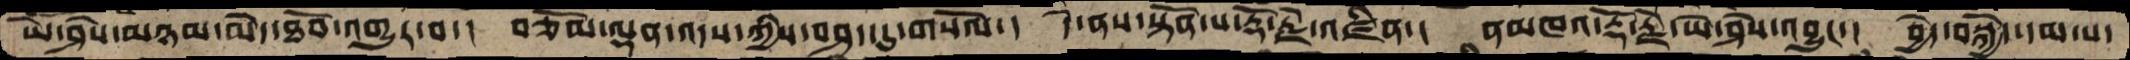ཡེ་ཤེས་མཉམ་མེད་ཐོབ་འགྱུར་བ་།  བཅོམ་ལྡན་འདས་ཀྱིས་བཤད་དུ་གསོལ་།  དེ་ནས་སྟོན་པ་རྡོ་རྗེ་འཛིན་།  ནམཁའ་རྡོ་རྗེ་ཡེ་ཤེས་འབྱུང་།  བྱེད་བསྐྱེད་དམ་པ་
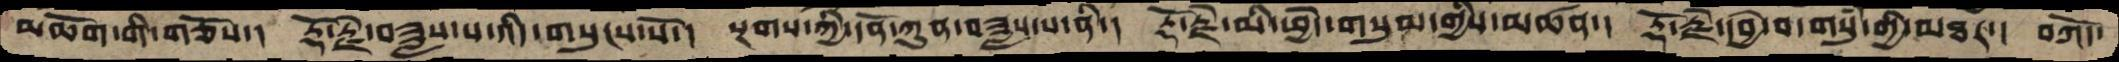མཆོག་གི་གཙོས་།  རྡོ་རྗེ་བཟླས་པ་འདི་གསུངས་སོ་།  སྔགས་ཀྱི་དོན་ཀུན་བཟླས་པ་ནི་།  རྡོ་རྗེ་མི་ཕྱེད་གསུམ་གྱིས་མཚན་།  རྡོ་རྗེ་དབྱེ་བ་གསུཾ་གྱི་མཐར་།  བཀོད་
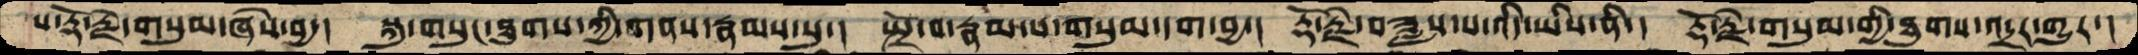པ་རྡོ་རྗེ་གསུམ་ཞེས་བྱ་།  སྐུ་གསུང་ཐུགས་ཀྱི་གནས་རྣམས་སུ།  སྤྲོ་བ་རྣམ་པ་གསུམ་དག་བྱ་།  རྡོ་རྗེ་བཟླས་པ་འདི་ཡིས་ནི་།  རྡོ་རྗེ་གསུམ་གྱི་ཐུགས་འདྲར་གྱུར་།
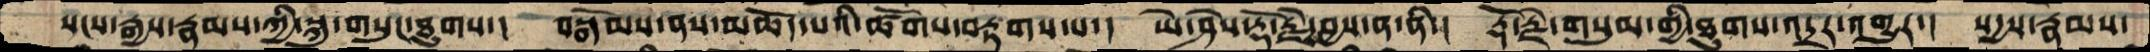སངས་རྒྱས་རྣམས་ཀྱི་སྐུ་གསུང་ཐུགས་།  བསྒོམས་ནས་མཆོད་པའི་ཚོགས་བརྟགས་པ་།  ཡེ་ཤེས་རྡོ་རྗེ་བྱས་ན་ནི་།  རྡོ་རྗེ་གསུམ་གྱི་ཐུགས་འདྲར་འགྱུར་།  སདྱས་རྣམས་
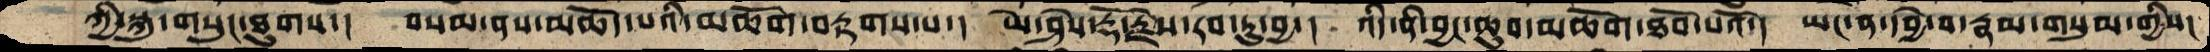ཀྱི་སྐུ་གསུང་ཐུགས་།  བསམ་ནས་མཆོད་པའི་མཆོག་བརྟགས་པ་།  ཡེ་ཤེས་རྡོ་རྗེས་རབ་ཏུ་བྱ་།  འདི་ནི་བྱང་ཆུབ་མཆོག་ཐོབ་པའོ་།  ཡང་ན་དབྱེ་བ་རྣམ་གསུམ་གྱིས།
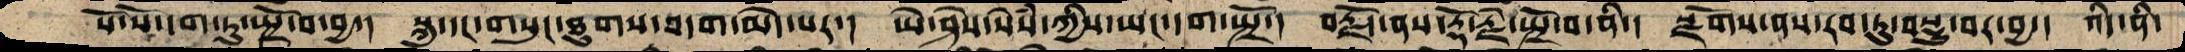སོ་སོ་དག་ཏུ་སྤྲོ་བ་བྱ་།  སྐུ་དང་གསུང་ཐུགས་བདག་མེད་པར་།  ཡེ་ཤེས་སེཾས་ཀྱིས་ཡང་དག་སྤྲོ་།  བརྗོད་ནས་རྡོ་རྗེ་སྤྲོ་བ་ནི་།  སྫོགས་ནས་རབ་ཏུ་བསྡུ་བར་བྱ་།  འདི་ནི་
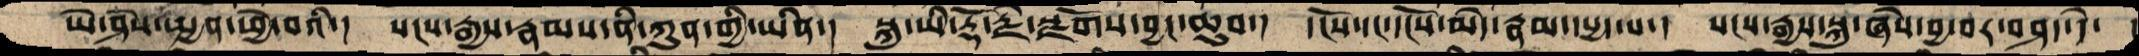ཡེ་ཤེས་སྤྱན་ཕྱེ་བའི་།  སངས་རྒྱས་རྣམས་ནི་ཀུན་གྱི་ཡིན་།  སྐུ་ཡི་རྡོ་རྗེ་སྫོགས་བྱང་ཆུབ་།  དངོས་དང་དངོས་མེད་རྣམ་དཔྱད་པ་།  སངས་རྒྱས་སྐུ་ཞེས་བྱ་བར་བཤད་དེ་
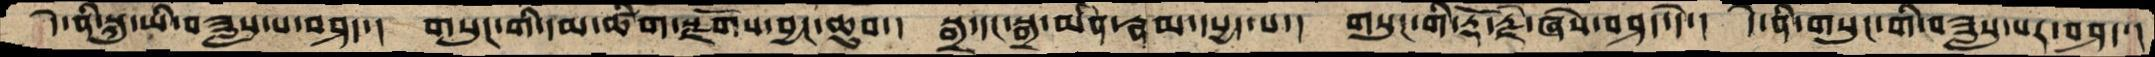དེ་ནི་སྐུ་ཡི་བཟླས་པ་བཤད་།  གསུང་གི་དམ་ཚིག་སྫོགས་བྱང་ཆུབ་།  སྒྲ་དང་སྒྲ་མིན་རྣམ་དཔྱད་པ་།  གསུང་གི་རྡོ་རྗེ་ཞེས་བཤད་དེ་།  དེ་ནི་གསུང་གི་བཟླས་པར་བཤད་།
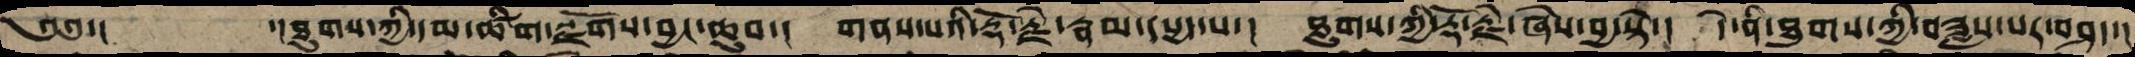༄༅་།        ་།ཐུགས་ཀྱི་དམ་ཚིག་སྫོགས་བྱང་ཆུབ་།  གནས་པའི་རྡོ་རྗེ་རྣམ་དཔྱད་པ་།  ཐུགས་ཀྱི་རྡོ་རྗེ་ཞེས་བྱ་སྟེ་།  དེ་ནི་ཐུགས་ཀྱི་བཟླས་པར་བཤད་།
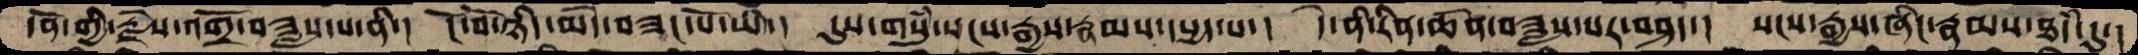དོན་གྱི་རྗེས་འགྲོ་བཟླས་པ་ནི་།  ངོ་བོ་ཉིད་མེད་བཟང་པོ་ཡི་།  དུས་གསུཾ་སངས་རྒྱས་རྣམས་དཔྱད་པ་།  དེ་ནི་རིན་ཆེན་བཟླས་པར་བཤད་།  སངས་རྒྱས་ཞིང་རྣམས་ཐཾད་དུ་།
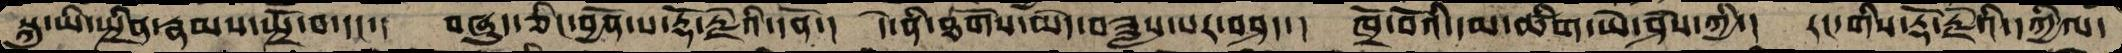སྐུ་ཡི་སྤྲིན་རྣམས་སྤྲོ་བ་དང་།  བཞུད་ཅིང་བྱོན་པ་རྡོ་རྗེའི་དོན་།  དེ་ནི་ཐོགས་མེད་བཟླས་པར་བཤད་།  ཁྲོ་བོའི་དམ་ཚིག་ཡེ་ཤེས་ཀྱི་།  རང་གི་རྡོ་རྗེའི་དཀྱིལ་
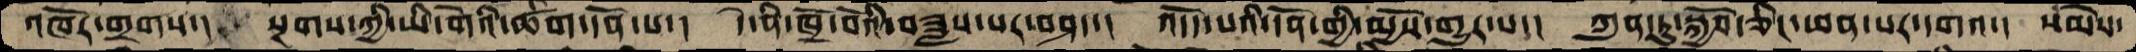འཁོར་གྲགས་།  སྔགས་ཀྱི་ཡི་གེའི་ཚག་དོན་པ་།  དེ་ནི་ཁྲོ་བོའི་བཟླས་པར་བཤད་།  འདོད་པའི་དོན་གྱི་མྱོས་གྱུར་པ་།  ཀུན་ཏུ་སྐྱོབ་ཅིང་ཕན་པར་དགའ་།  སེམས་
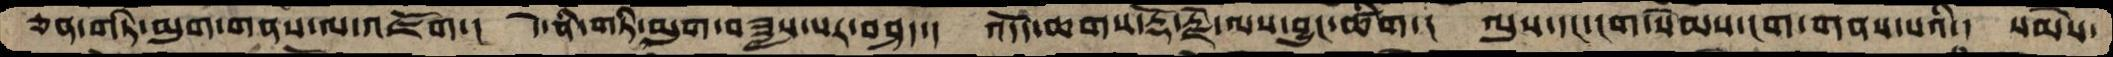ཅན་གཏི་མུག་གནས་ལ་འཇོག་།  དེ་ནི་གཏི་མུག་བཟླས་པར་བཤད་།  འདོད་ཆགས་རྡོ་རྗེ་ལས་བྱུང་ཚིག་།  ལུས་དང་ངག་སེམས་ངག་གནས་པའི་།  སེམས་
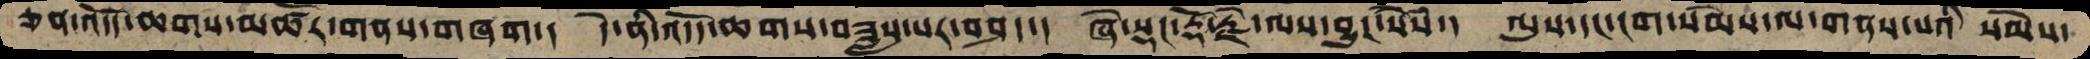ཅན་འདོད་ཆགས་མཚར་གནས་གཞག་།  དེ་ནི་འདོད་ཆགས་བཟླས་པར་བཤད་།  ཞེ་སྡང་རྡོ་རྗེ་ལས་བྱུང་སེསཾ་།  ལུས་དང་ངག་སེམས་ལ་གནས་པའི སེམས་
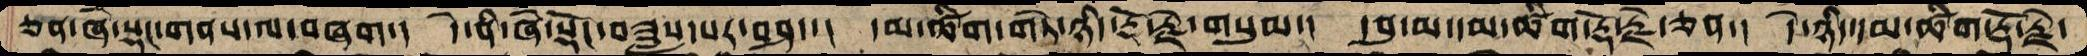ཅན་ཞེ་སྡང་གནས་ལ་བཞག་།  དེ་ནི་ཞེ་སྡོང་བཟླས་པར་བཤད་།  དམ་ཚིག་གཏེ་ཉིད་རྡོ་རྗེ་གསུམ་།  དབུ་མ་དམ་ཚིག་རྡོ་རྗེ་ཅན་།  དེ་ཉིད་དམ་ཚིག་རྡོ་རྗེ་
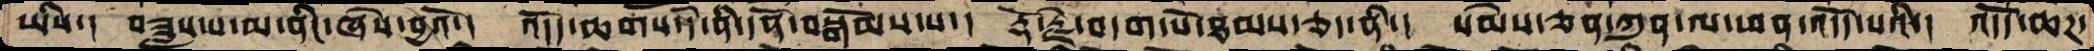ཡིས་།  བཟླས་པ་མ་ནིང་ཞེས་བྱའོ་།  འདོད་ཆགས་དེ་ནི་དོན་བསྒོམས་པ་།  རྡོ་རྗེ་བདག་པོ་ཐམས་ཅད་ནི་།  སེམས་ཅན་ཀུན་ལ་ཕན་འདོད་པའི་།  འདོད་ཆཌ་
